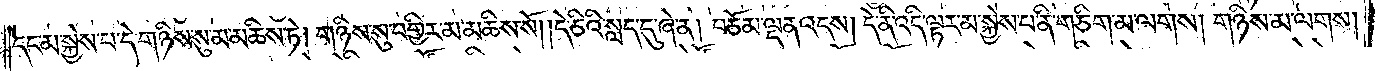དང་མ་སྐྱེས་པ་དེ་གཉིས་སུ་མ་མཆིས་ཏེ། གཉིས་སུ་བགྱིར་མ་མཆིས་སོ། །དེ་ཅིའི་སླད་དུ་ཞེ་ན། བཅོམ་ལྡན་འདས། དེ་ནི་འདི་ལྟར་མ་སྐྱེས་པ་ནི་གཅིག་མ་ལགས། གཉིས་མ་ལགས།
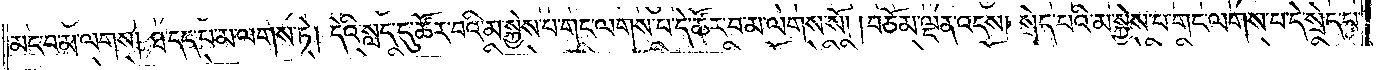མང་བ་མ་ལགས། ཐ་དད་པ་མ་ལགས་ཏེ། དེའི་སླད་དུ་ཚོར་བའི་མ་སྐྱེས་པ་གང་ལགས་པ་དེ་ཚོར་བ་མ་ལགས་སོ། །བཅོམ་ལྡན་འདས། སྲེད་པའི་མ་སྐྱེས་པ་གང་ལགས་པ་དེ་སྲེད་པ་
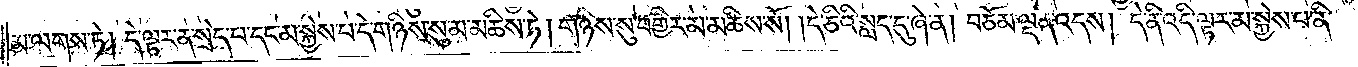མ་ལགས་ཏེ། དེ་ལྟར་ན་སྲེད་པ་དང་མ་སྐྱེས་པ་དེ་གཉིས་སུ་མ་མཆིས་ཏེ། གཉིས་སུ་བགྱིར་མ་མཆིས་སོ། །དེ་ཅིའི་སླད་དུ་ཞེ་ན། བཅོམ་ལྡན་འདས། དེ་ནི་འདི་ལྟར་མ་སྐྱེས་པ་ནི་
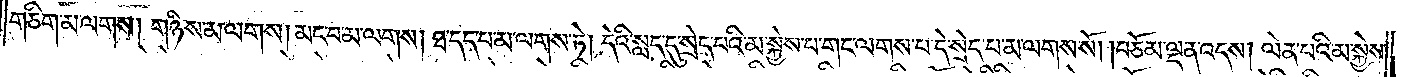གཅིག་མ་ལགས། གཉིས་མ་ལགས། མང་བ་མ་ལགས། ཐ་དད་པ་མ་ལགས་ཏེ། དེའི་སླད་དུ་སྲེད་པའི་མ་སྐྱེས་པ་གང་ལགས་པ་དེ་སྲེད་པ་མ་ལགས་སོ། །བཅོམ་ལྡན་འདས་ལེན་པའི་མ་སྐྱེས་
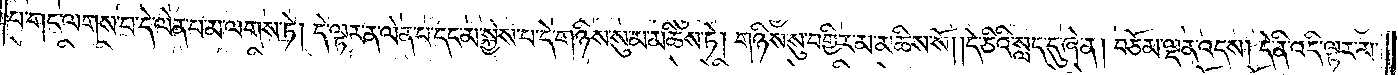པ་གང་ལགས་པ་དེ་ལེན་པ་མ་ལགས་ཏེ། དེ་ལྟར་ན་ལེན་པ་དང་མ་སྐྱེས་པ་དེ་གཉིས་སུ་མ་མཆིས་ཏེ། གཉིས་སུ་བགྱིར་མ་མཆིས་སོ། །དེ་ཅིའི་སླད་དུ་ཞེ་ན། བཅོམ་ལྡན་འདས། དེ་ནི་འདི་ལྟར་མ་
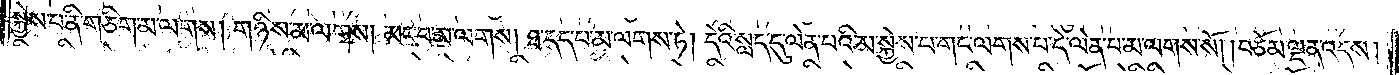སྐྱེས་པ་ནི་གཅིག་མ་ལགས། གཉིས་མ་ལགས། མང་བ་མ་ལགས། ཐ་དད་པ་མ་ལགས་ཏེ། དེའི་སླད་དུ་ལེན་པའི་མ་སྐྱེས་པ་གང་ལགས་པ་དེ་ལེན་པ་མ་ལགས་སོ། །བཅོམ་ལྡན་འདས།
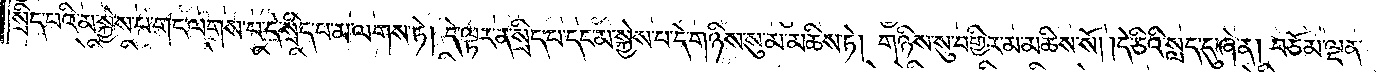སྲིད་པའི་མ་སྐྱེས་པ་གང་ལགས་པ་དེ་སྲིད་པ་མ་ལགས་ཏེ། དེ་ལྟར་ན་སྲིད་པ་དང་མ་སྐྱེས་པ་དེ་གཉིས་སུ་མ་མཆིས་ཏེ། གཉིས་སུ་བགྱིར་མ་མཆིས་སོ། །དེ་ཅིའི་སླད་དུ་ཞེ་ན། བཅོམ་ལྡན་
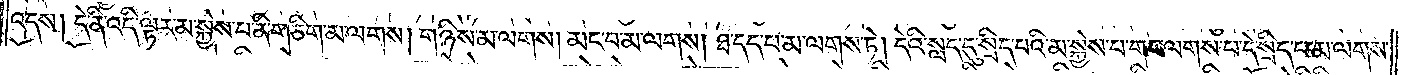འདས། དེ་ནི་འདི་ལྟར་མ་སྐྱེས་པ་ནི་གཅིག་མ་ལགས། གཉིས་མ་ལགས། མང་བ་མ་ལགས། ཐ་དད་པ་མ་ལགས་ཏེ། དེའི་སླད་དུ་སྲིད་པའི་མ་སྐྱེས་པ་གང་ལགས་པ་དེ་སྲིད་པ་མ་ལགས་
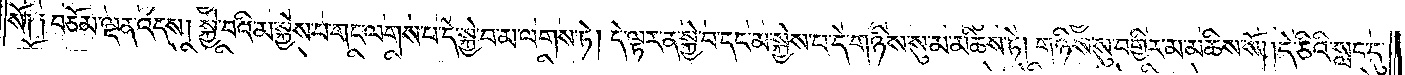སོ༑ ༑བཅོམ་ལྡན་འདས། སྐྱེ་བའི་མ་སྐྱེས་པ་གང་ལགས་པ་དེ་སྐྱེ་བ་མ་ལགས་ཏེ། དེ་ལྟར་ན་སྐྱེ་བ་དང་མ་སྐྱེས་པ་དེ་གཉིས་སུ་མ་མཆིས་ཏེ། གཉིས་སུ་བགྱིར་མ་མཆིས་སོ། །དེ་ཅིའི་སླད་དུ་
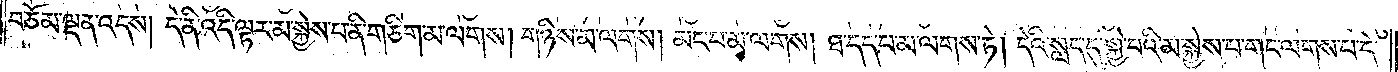བཅོམ་ལྡན་འདས། དེ་ནི་འདི་ལྟར་མ་སྐྱེས་པ་ནི་གཅིག་མ་ལགས། གཉིས་མ་ལགས། མང་བ་མ་ལགས། ཐ་དད་པ་མ་ལགས་ཏེ། དེའི་སླད་དུ་སྐྱེ་བའི་མ་སྐྱེས་པ་གང་ལགས་པ་དེ་
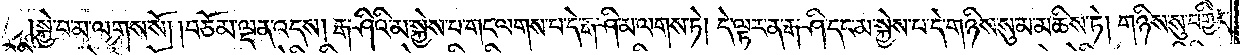སྐྱེ་བ་མ་ལགས་སོ། །བཅོམ་ལྡན་འདས། རྒ་ཤིའི་མ་སྐྱེས་པ་གང་ལགས་པ་དེ་རྒ་ཤི་མ་ལགས་ཏེ། དེ་ལྟར་ན་རྒ་ཤི་དང་མ་སྐྱེས་པ་དེ་གཉིས་སུ་མ་མཆིས་ཏེ། གཉིས་སུ་བགྱིར་
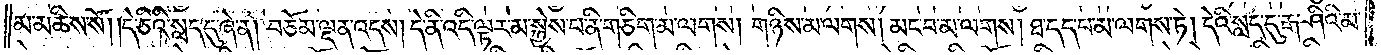མ་མཆིས་སོ། །དེ་ཅིའི་སླད་དུ་ཞེ་ན། བཅོམ་ལྡན་འདས། དེ་ནི་འདི་ལྟར་མ་སྐྱེས་པ་ནི་གཅིག་མ་ལགས། གཉིས་མ་ལགས། མང་བ་མ་ལགས། ཐ་དད་པ་མ་ལགས་ཏེ། དེའི་སླད་དུ་རྒ་ཤིའི་མ་
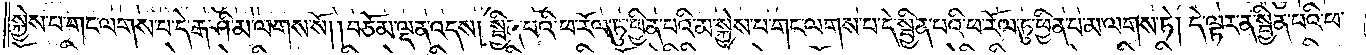སྐྱེས་པ་གང་ལགས་པ་དེ་རྒ་ཤི་མ་ལགས་སོ། །བཅོམ་ལྡན་འདས། སྦྱིན་པའི་ཕ་རོལ་ཏུ་ཕྱིན་པའི་མ་སྐྱེས་པ་གང་ལགས་པ་དེ་སྦྱིན་པའི་ཕ་རོལ་ཏུ་ཕྱིན་པ་མ་ལགས་ཏེ། དེ་ལྟར་ན་སྦྱིན་པའི་ཕ་
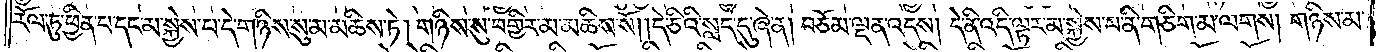རོལ་ཏུ་ཕྱིན་པ་དང་མ་སྐྱེས་པ་དེ་གཉིས་སུ་མ་མཆིས་ཏེ། གཉིས་སུ་བགྱིར་མ་མཆིས་སོ། །དེ་ཅིའི་སླད་དུ་ཞེ་ན། བཅོམ་ལྡན་འདས་དེ་ནི་འདི་ལྟར་མ་སྐྱེས་པ་ནི་གཅིག་མ་ལགས། གཉིས་མ་
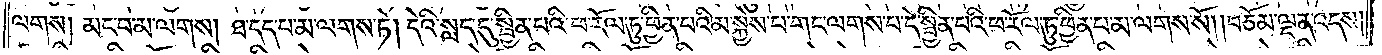ལགས། མང་བ་མ་ལགས། ཐ་དད་པ་མ་ལགས་ཏེ། དེའི་སླད་དུ་སྦྱིན་པའི་ཕ་རོལ་ཏུ་ཕྱིན་པའི་མ་སྐྱེས་པ་གང་ལགས་པ་དེ་སྦྱིན་པའི་ཕ་རོལ་ཏུ་ཕྱིན་པ་མ་ལགས་སོ། །བཅོམ་ལྡན་འདས།
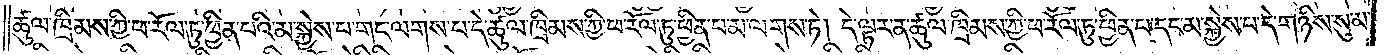ཚུལ་ཁྲིམས་ཀྱི་ཕ་རོལ་ཏུ་ཕྱིན་པའི་མ་སྐྱེས་པ་གང་ལགས་པ་དེ་ཚུལ་ཁྲིམས་ཀྱི་ཕ་རོལ་ཏུ་ཕྱིན་པ་མ་ལགས་ཏེ། དེ་ལྟར་ན་ཚུལ་ཁྲིམས་ཀྱི་ཕ་རོལ་ཏུ་ཕྱིན་པ་དང་མ་སྐྱེས་པ་དེ་གཉིས་སུ་མ་
